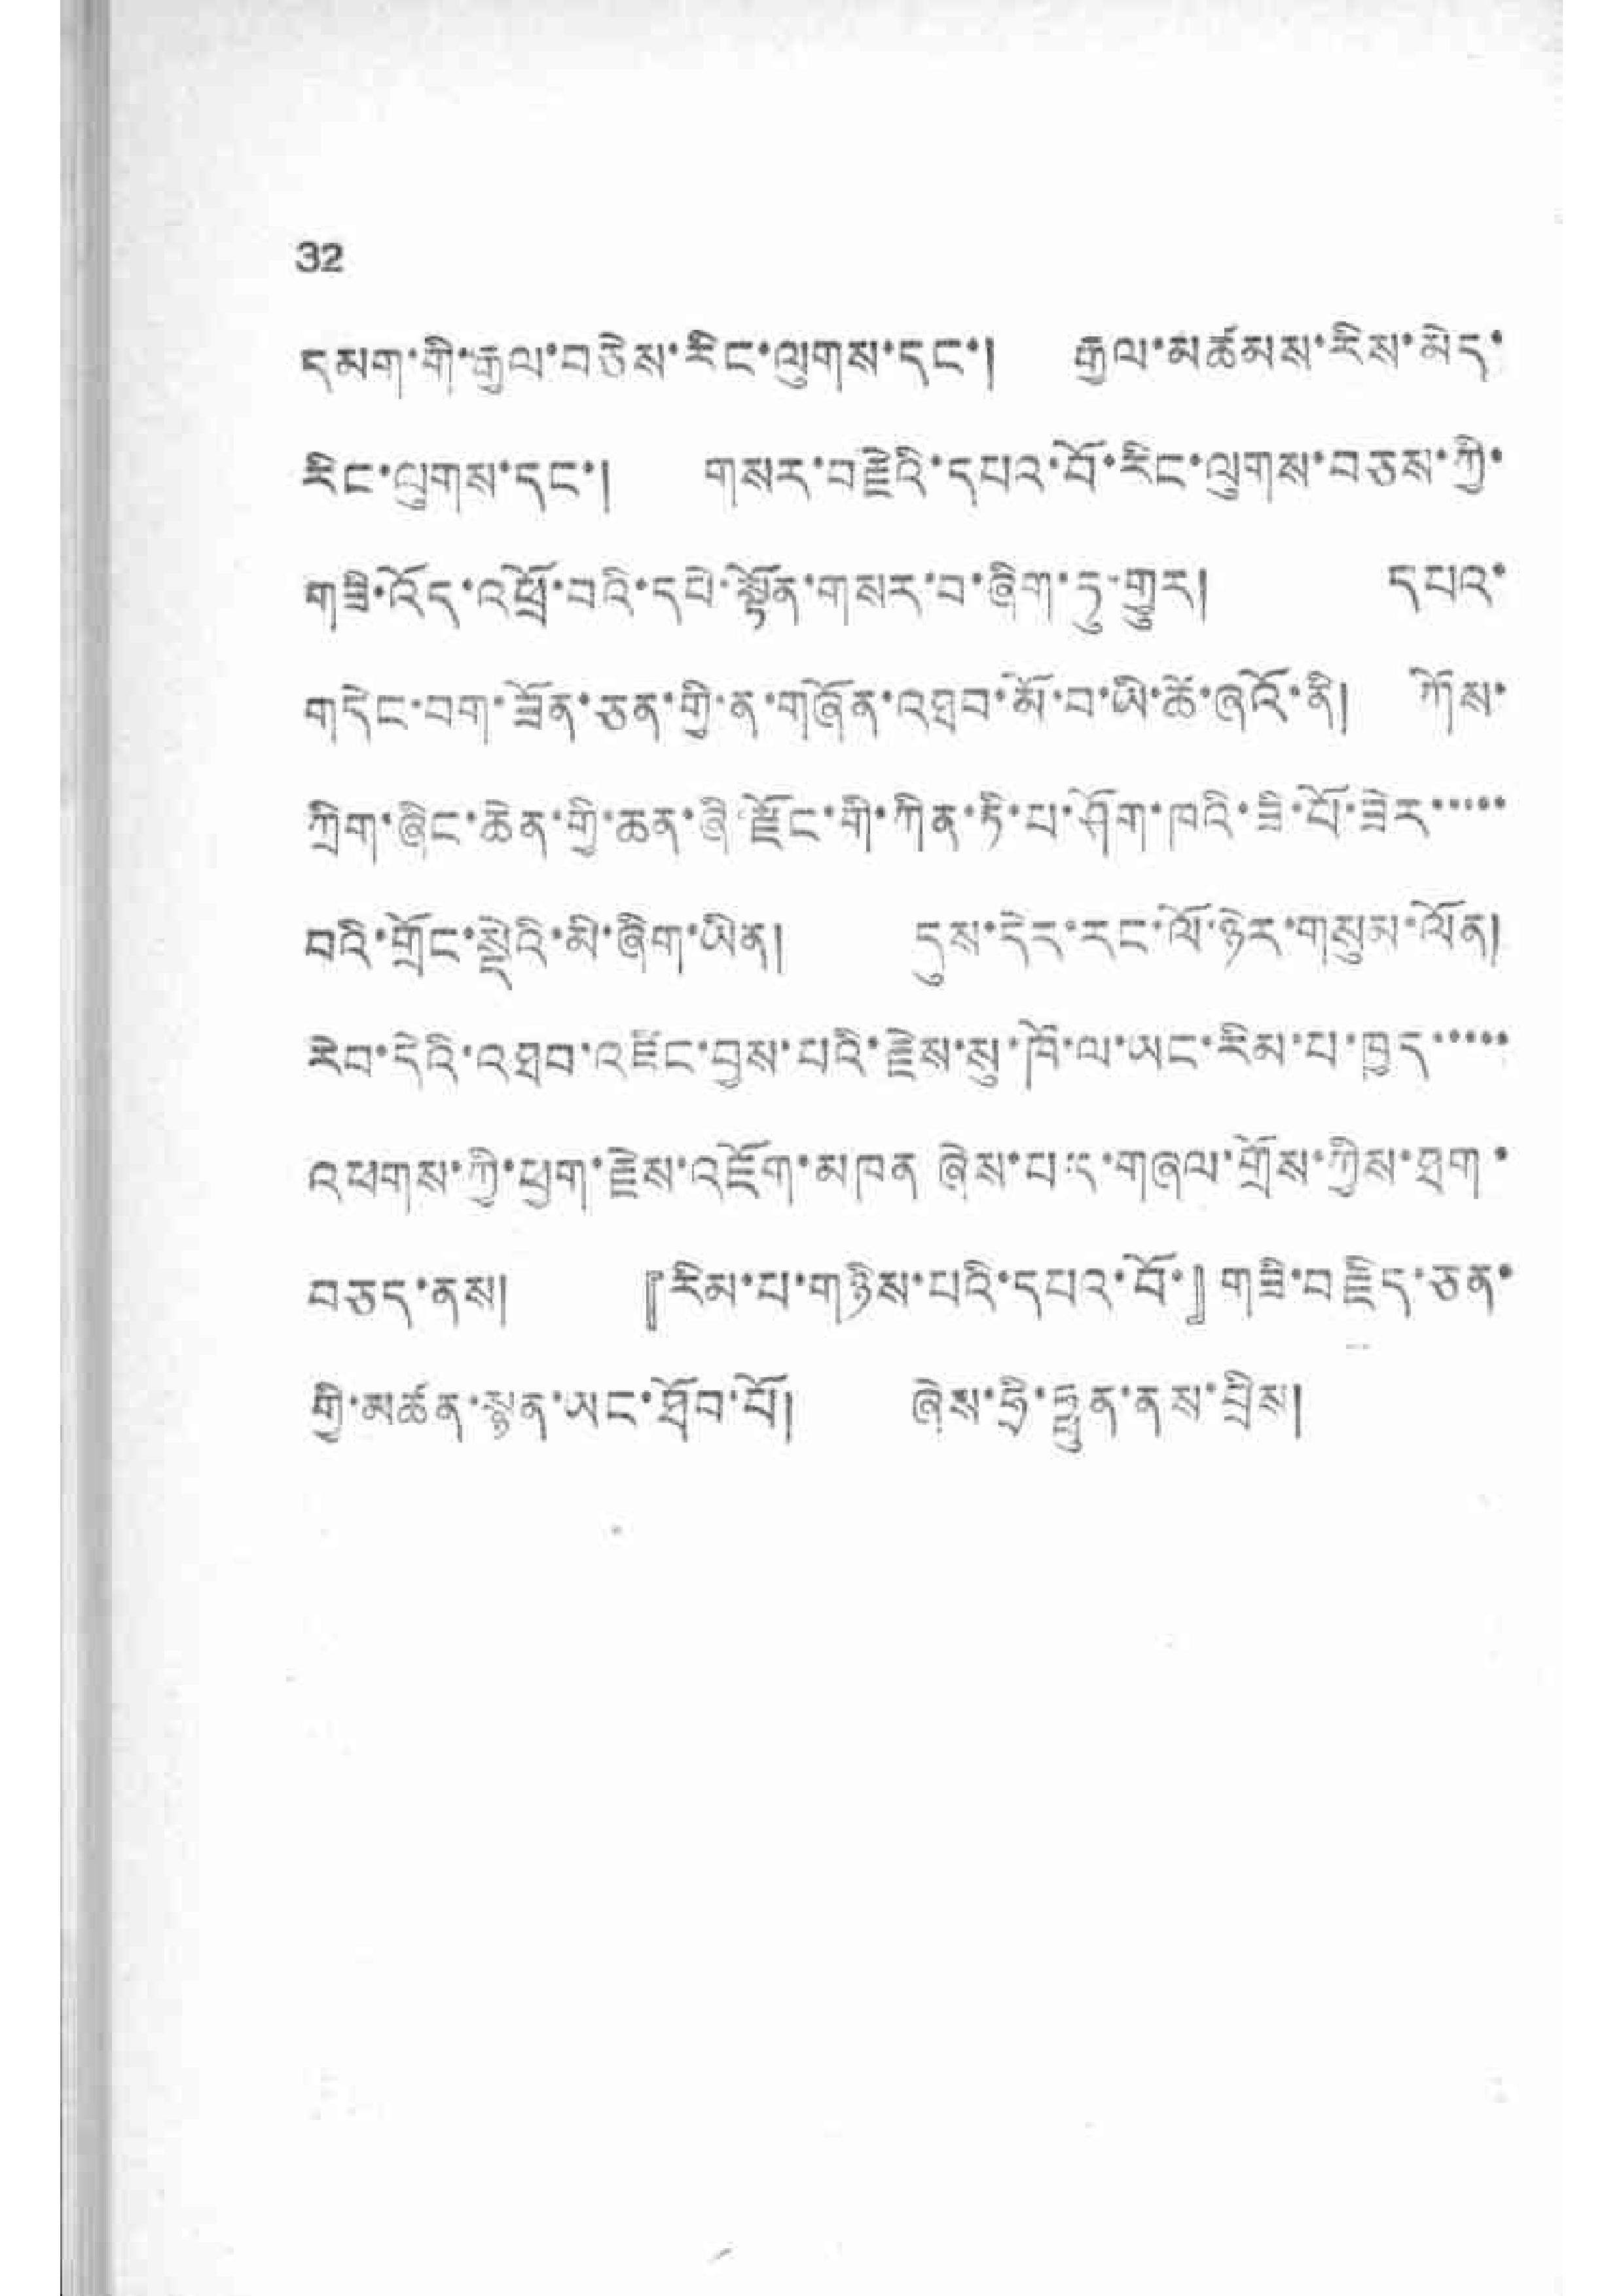32
དཔག་གི་རྒྱལ་བཅེས་རིང་ལུགས་དང་། རྒྱལ་མཚམས་རིས་མེད་
རིང་ལུགས་དང་། གསར་བརྗེའི་དཔའ་བོ་རིང་ལུགས་བཅས་ཀྱི་
གཟི་འོད་འཕྲོ་བའི་དཔེ་སྟོན་གསར་བ་ཞིག་ཏུ་གྱུར། དཔའ་
གདེང་བག་ཟོན་ཅན་གྱི་ན་གཞོན་འཐབ་མོ་བ་ཡི་ཚེ་ཞའོ་ནི། ཀོས་
ཀྲིག་ཞིང་ཆེན་གྱི་ཆན་ཞི་རྫོང་གི་ཀིན་ཏི་པ་ཤོག་ཁའི་ཟི་པོ་ཟེར་་་་་
བའི་གྲོང་སྡེའི་མི་ཞིག་ཡིན། དུས་དེར་རང་ལོ་ཉེར་གསུམ་ལོན།
རེབ་དེའི་འཐབ་འཛིང་བྱས་པའི་རྗེས་སུ་ཁོ་ལ་ཡང་རིམ་པ་ཁྱར་་་་་
འཕགས་ཀྱི་ཕྱག་རྗེས་འཇོག་མཁན་ཞེས་པར་གཞལ་གྲོས་ཀྱིས་ཐག་
བཅད་ནས། 『རིམ་པ་གཉིས་པའི་དཔའ་བོ་』གཟི་བརྗིད་ཅན་
གྱི་མཚན་སྙན་ཡང་ཐོབ་པོ། ཞེས་ཧྲི་ཧྥུན་ནས་བྲིས།
